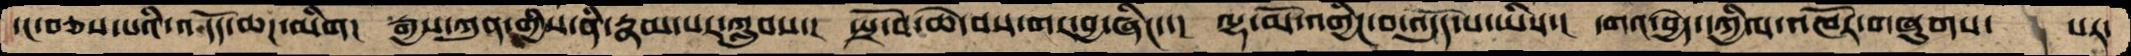དང་བཅས་པའི་འདོད་ཆཌ་མིག།  རྒྱས་ཀུན་གྱིས་ནི་རྣམ་པར་ཀླུབས་།  སྤྲོ་བ་ཆེ་བས་གར་བྱ་ཞིང་་།  ལྷ་མོ་འགྱིང་བ་འདུད་པ་ཡིས་།  དགའ་བྱེད་དཀྱིལ་འཁོར་གཞུགས་   པར་
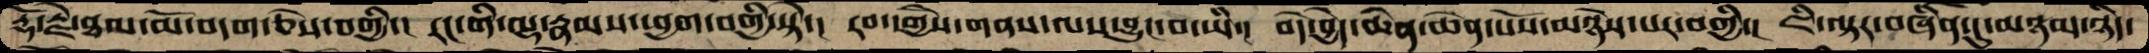རྡོ་རྗེ་ཐལ་མོ་བདག་ཅེས་བགྱི་།  རང་གི་ལྷ་རྣམས་ཕྱག་བགྱི་སྟེ་།  རབ་དགྱེས་གནས་ལས་བྱུང་བ་ཡི་།  བདེ་བྱེད་ཆེན་ཆེན་པོས་མཉེས་པར་བགྱི་།  ཇི་ལྟར་བཞིན་དུ་མཉམ་ཉིད་
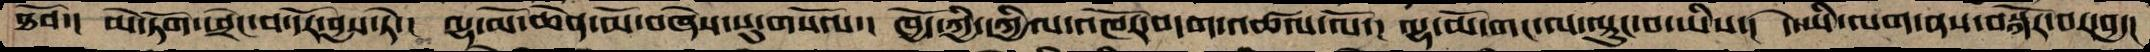ཐོབ་།  མེ་ཏོག་ཕྲེང་བ་དོར་བྱས་ཏེ་།  ལྷ་མོ་ཆེན་མོ་བཞེས་སུ་གསོལ་།  ཁྱོད་ཀྱི་དཀྱིལ་འཁོར་བདག་འཚལ་ལོ་།  ལྷ་མོ་གང་ལ་ལྟུང་བ་ཡིས་།  དེ་ཡི་ལག་ནས་བསྐོར་བར་བྱ་།
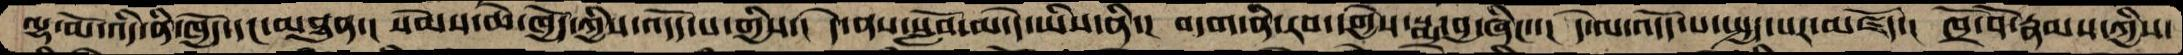ལྷ་མོ་འདི་ནི་ཁྱོད་དང་མཐུན་།  སེམས་ཆེ་ཁྱོད་ཀྱིས་འདོད་པ་གྱིས་།  དེ་ནས་སློབ་མ་དེ་ཡིས་ནི་།  བདག་ནི་རབ་དགྱེས་སྨྲ་བྱ་ཞིང་་།  དེ་ལ་འདོད་པ་སྤྱད་པར་མཛོད་།  ཁྲོ་བོ་རྣམས་ཀྱིས་
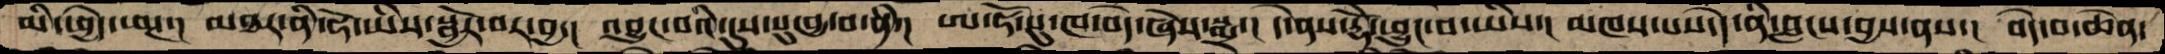མི་ཕྱེད་ཕཊ་།  མཐར་ནི་ཧོ་ཡིས་སྦྱོར་བར་བྱ་།  འབྱུང་བའི་དུས་སུ་བྱ་བ་ནི་།  ཨ་ཧོ་སུ་ཁ་བདེ་ཞེས་སྨྲ་།  དེ་ནས་རྡོེ་བྱུང་བ་ཡིས་།  མཁས་པས་དེ་ནི་བླངས་བྱས་ནས་།  བདེ་བ་ཆེན་
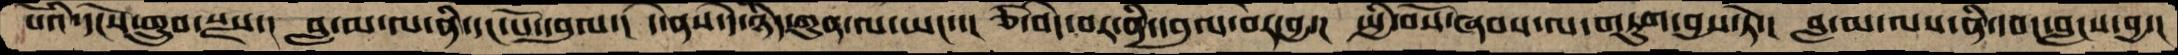པོའི་དངོས་གྲུབ་སྫས་།  བླ་མ་ལ་ནི་དང་པོ་དབུལ་།  དེ་ནས་དེ་ཉིད་ཀུན་ལ་ཡང་་།  ཅི་བདེ་བར་ནི་དབུལ་བར་བྱ་།  སྤྱི་བོས་ཞབས་ལ་གཏུག་བྱས་ཏེ་།  བླ་མ་ལས་ནི་དབང་བླངས་བྱ་།
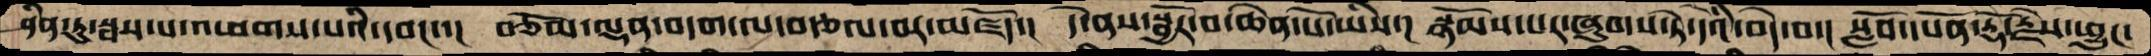ཤིན་ཏུ་སྦས་པ་འཕགས་པའི་དབང་་།  བཅོམ་ལྡན་བདག་ལ་བརྩལ་བར་མཛོད་།  དེ་ནས་སྦྱོར་བ་ཆེན་པོ་ཡིས་།  སྙོམས་པར་ཞུགས་ཏེ་དེའི་བདེ་བ་།  སློབ་དཔོན་རྡོ་རྗེས་ཕྱུང་
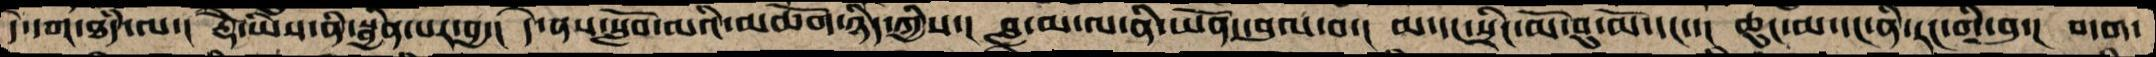དེ་དག་ཐདཾ་ལ་།  རྡོེ་ཡིས་ནི་སྦྱིན་པར་བྱ་།  དེ་ནས་སློབ་མའི་མཆོག་ཉིད་ཀྱིས་།  བླ་མ་ལ་ནི་ཡོན་དབུལ་བ་།  མ་དང་སྲིང་མོ་བུ་མོ་དང་་།  ཆུང་མ་དང་ནི་རང་གི་བུ་།  བདག་
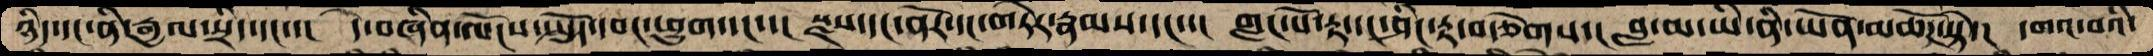ཉིད་དང་ནི་རྒྱལ་སྲིད་དང་་།  དེ་བཞིན་ལོངས་སྤྱོད་དབང་ཕྱུག་དང་་།  སྫས་དང་ནོར་དང་གཏེར་རྣམས་དང་་།  གླང་པོ་རྟ་དང་ཤིང་རྟ་བརྩེགས་།  བླ་མ་ཡི་ནི་ཡོན་མཆོད་སྟེ་།  དགའ་བའི་
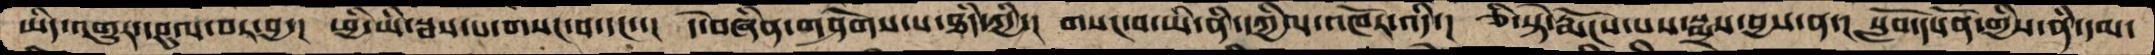ཡིད་འགྱུར་དབུལ་བར་བྱ་།  ཕྱི་ཡི་སྦས་པ་གསང་བ་དང་་།  ད་ེབཞིན་གཤེགས་པ་ཐདཾ་ཀྱི་།  གསང་བ་ཡི་ནི་དཀྱིལ་འཁོར་འདི་།  ཅི་སྟེ་རྨོངས་པས་སྨྲས་བྱས་ན་།  སློབ་དཔོན་གྱིས་ནི་དམ་
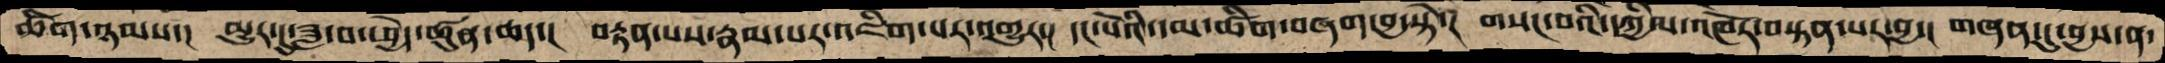ཚིག་ཉམས་།  མྱུར་དུ་ཟླ་བ་ཕྱེད་ཚུན་ཆད་།  བརྟན་པས་རྣམ་པར་འཇིག་པར་འགྱུར་།  དང་པོའི་དམ་ཚིག་བཞག་བྱ་སྟེ་།  གསང་བའི་དཀྱིལ་འཁོར་བསྟན་པར་བྱ་།  གཞན་དུ་བྱས་ན་
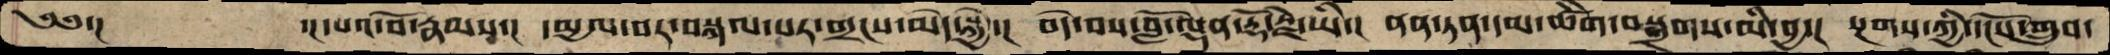༄༅་།      ་།དཔའ་བོ་རྣམས་།  དམྱལ་བར་བསྐལ་པར་གྲངས་མེད་སྐྱེ་།  བདེ་བས་བློ་ལྡན་རྡོ་རྗེ་ཡི་།  ནན་ཏན་དམ་ཚིག་བསྒྲགས་མི་བྱ་།  སྔགས་ཀྱི་དངོས་གྲུབ་
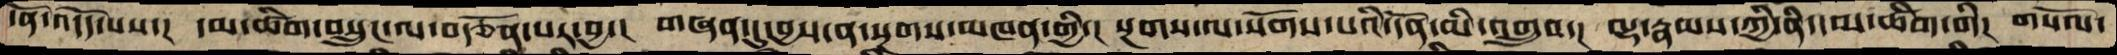དོན་འདོད་པས་།  དམ་ཚིག་བསྲུང་ལ་བརྩོན་པར་བྱ་།  གཞན་དུ་བྱས་ན་སྔགས་མཁན་གྱི་།  སྔགས་ལ་སོགས་པའི་དོན་མི་འགྲུབ་།  ལྷ་རྣམས་ཀྱི་ནི་དམ་ཚིག་གི།  གསོལ་
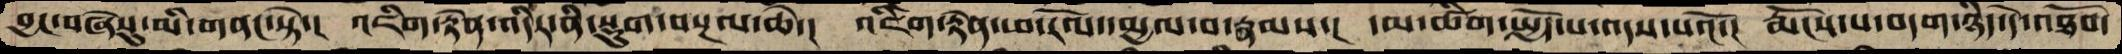བྱང་བཞེསུ་མི་གནང་སྟེ་།  འཇིག་རྟེན་འདིར་ནི་སྡུག་བསྔལ་ཆེ་།  འཇིག་རྟེན་ཕ་རོལ་དམྱལ་བ་རྣམས་།  དམ་ཚིག་སྤྱོད་པ་འདས་པའོ་།  རྨོངས་པ་བདག་ཉིད་དེ་འཐོབ་
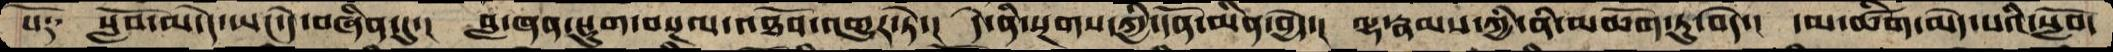སོ༑  སློབ་མ་དེ་ཡང་དེ་བཞིན་དུ་།  བླ་ཞན་སྡུག་བསྔལ་འཐོབ་འགྱུར་ཏེ་།  དེ་ནི་སྔགས་ཀྱི་དོན་མིན་བྱེད་།  ལྷ་རྣམས་ཀྱི་ནི་མཆོག་ཏུ་བདེ་།  དམ་ཚིག་མེད་པའི་སློབ་
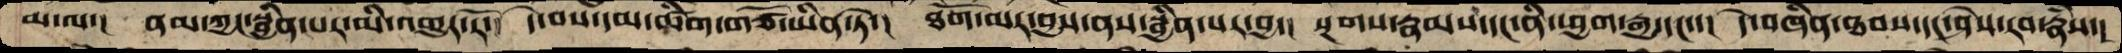མ་ལ་།  ནམ་ཀྱང་སྦྱིན་པར་མ་འགྱུར་རོ་།   དེ་བས་དམ་ཚིག་གཙོ་ཡིན་ཏེ་།  ཐོག་མར་བྱས་ནས་སྦྱིན་པར་བྱ་།  སྔགས་རྣམས་དང་ནི་ཕྱག་རྒྱ་དང་་།   དེ་བཞིན་ཐབས་དང་ཤེས་རབ་རྣཾས་།
